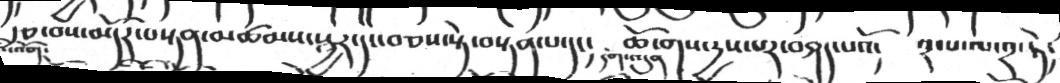རྩ་བས་མདོར་བསྟན་མཚམས་སྦྱར་དང་བཅས་སྟེ་བསྟན་པ་དང།   ཆོ་གས་རྱས་པར་བཤད་པའོ།  ༢་པ་ལ་༢་ཏེ་
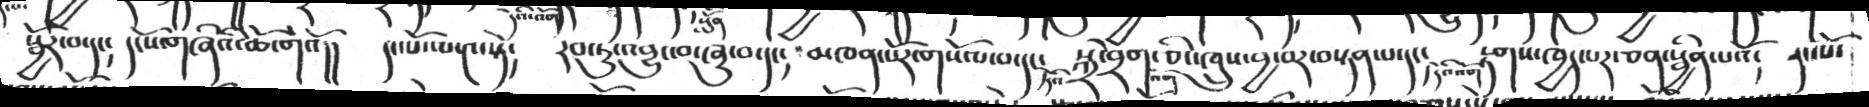སྦྱོར་བ་དང། དངོས་གཞིའི་ཆོ་གའོ།།   དང་པོ་པ་༤སྟེ།  རབ་ཏུ་བྱུང་བ་ཞུ་བ་དང།   མཁན་པོར་གསོལ་བ་དང་ཏའི་སྐྲ་བྲེག་ཅིང་ཁྲུས་བྱ་བར་བསྟན་པ་དང་། དེའི་འོག་རྟགས་ཁྱད་པར་ཅན་སྦྱིན་པའོ།  དང་པོ་
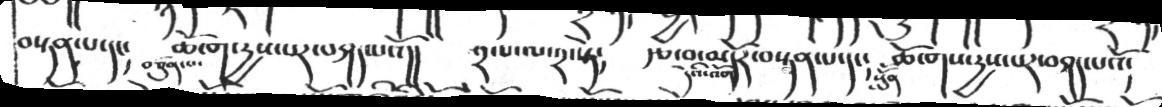བསྟན་པ་དང་།    ཆོ་ག་རྱས་པར་བཤད་པའོ་།།   ༢་པ་ལ་༢་སྟེ།    རྩ་བ་མདོར་བསྟན་པ་དང།  ཆོ་གས་རྱས་པར་བཤད་པའོ།
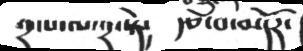༢་པ་ལ་༢་ཏེ།  རྩ་བ་མདོར་
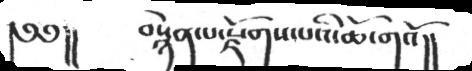༄༅།།    བསྙེན་པ་རྫོགས་པའི་ཆོ་གའོ།།
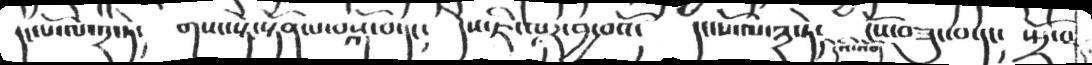དང་པོ་ལ་༢་ཏེ།   གསང་སྟེ་སྟོན་པ་བསྐོ་བ་དང།  དེས་ཇི་ལྟར་བྱ་བའོ།    དང་པོ་ལ་༣་ཏེ། དེའི་འོག་ངོས་བཟུང་བ་དང།  ཡྲོ་བ་
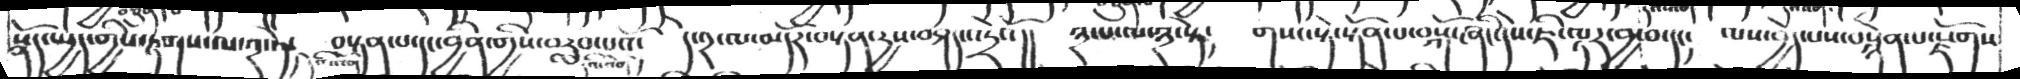སྣོད་ཡྱད་གྱིས་རྟགས་ལ་༢་ཏེ་    བསྟན་པ་དང་བྱིན་གྱིས་བརླབ་པའོ།   དེ་༢་ལ་མདོར་བསྟན་རྱས་བཤད་འདྲེསོ།།  ༣་པ་ལ་༣སྟེ།   གསང་སྟེ་སྟོན་པ་བསྐོ་ཞིང་དེས་ཇི་ལྟར་བྱ་བ་དང། ལས་བྱེད་པས་བསྙེན་པ་རྗོགས་
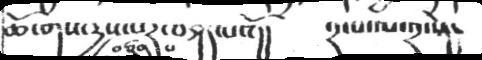ཆོ་གས་རྱས་པར་བཤད་པའོ།།    ༢་པ་ལ་༢་སྟེ་
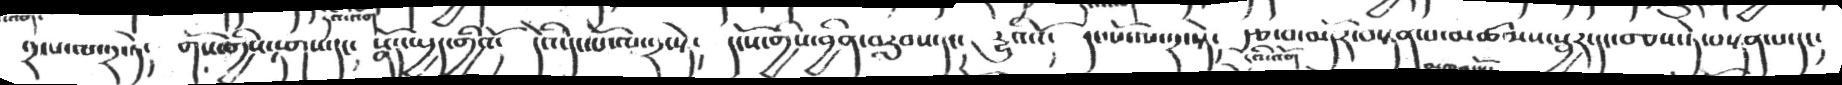༢་པ་ལ་༢ཏེ།   གོས་གྱིས་རྟགས་དང་   སྣོད་ཡྱད་གྱིའོ་   དེའི་དང་པོ་ལ་འདྲ་སྟེ།  དངོས་གྱིས་བྱིན་བརླབས་དང་  རྱུའིའོ།  དང་པོ་ལ་༢་སྟེ། རྩ་བ་མདོར་བསྟན་པ་མཚམས་སྦྱར་དང་བཅས་ཏེ་བསྟན་པ་དང།
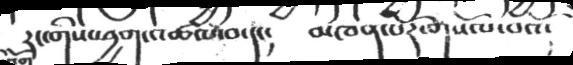རང་གིས་ཕྱག་འཚལ་བ་དང།   མཁན་པོར་གསོལ་བའོ།
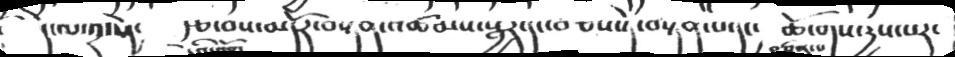དེ་ལ་༢་སྟེ།   རྩ་བས་མདོར་བསྟན་འཚམས་སྦྱར་དང་བཅས་སྟེ་བསྟན་པ་དང་    ཆོ་གས་རྱས་པར་
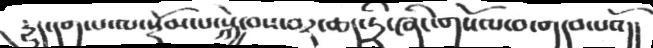རྱུད་དག་པ་ལ་སྡོམ་པ་སྐྱེ་བས་བར་ཆད་དྲི་ཞིང་གསོལ་བ་གདབ་པའོ།།
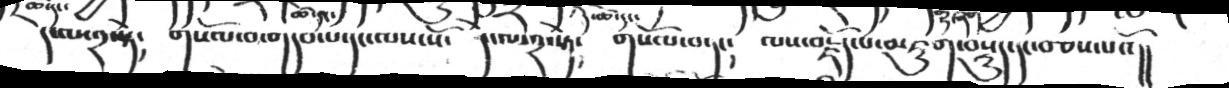དེ་ལ་༢་སྟེ༴   གསོལ་བ་གདབ་པ་དང་ལས་སོ་   དེ་ལ་༢་སྟེ༴  གསོལ་པ་བཏང༴  ལས་བརྗོད་པ་འཇུག་བསྡུད་དང་བ་ཅས་པའོ།།
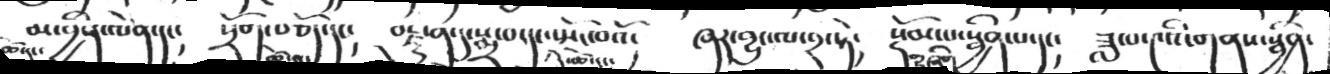ཚེ་དང་མ་བྱིན་ལེན་དང༴  སྲོག་བཅོད་དང༴ བརྫུན་དུ་སྨྲབ་དང་ཚེ་དང་སྤོང་བའོ༴  ཞར་བྱུང་ལ་༢་སྟེ༴ སྡོམ་པ་གཞིག་སྦྱིན་པ་དང༴  ཟླ་བ་༤འི་གནས་སྦྱིན་
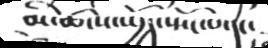མི་ཚངས་སྤྱོད་སྤོང་པ་དང་
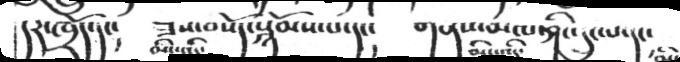དར་ཁྲོད་དང་།   མི་འདི་ཟས་བསོད་སྙོམས་པ་དང།   གནས་མལ་མི་འདི་ཤིང་དྲུང་པ་དང་
